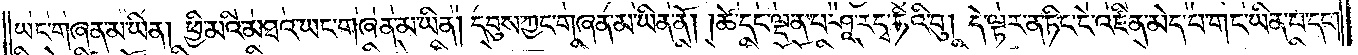ཡང་གཞན་མ་ཡིན། ཕྱི་མའི་མཐའ་ཡང་གཞན་མ་ཡིན། དབུས་ཀྱང་གཞན་མ་ཡིན་ནོ། །ཚེ་དང་ལྡན་པ་ཤཱ་རདྭ་ཏིའི་བུ། དེ་ལྟར་ན་ཏིང་ངེ་འཛིན་མེད་པ་གང་ཡིན་པ་དང༌།
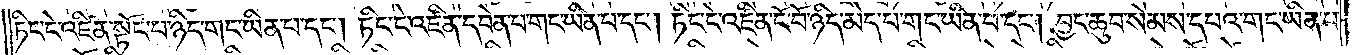ཏིང་ངེ་འཛིན་སྟོང་པ་ཉིད་གང་ཡིན་པ་དང༌། ཏིང་ངེ་འཛིན་དབེན་པ་གང་ཡིན་པ་དང༌། ཏིང་ངེ་འཛིན་ངོ་བོ་ཉིད་མེད་པ་གང་ཡིན་པ་དང༌། བྱང་ཆུབ་སེམས་དཔའ་གང་ཡིན་པ་
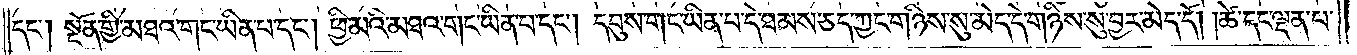དང༌། སྔོན་གྱི་མཐའ་གང་ཡིན་པ་དང༌། ཕྱི་མའི་མཐའ་གང་ཡིན་པ་དང༌། དབུས་གང་ཡིན་པ་དེ་ཐམས་ཅད་ཀྱང་གཉིས་སུ་མེད་དེ་གཉིས་སུ་བྱར་མེད་དོ། །ཚེ་དང་ལྡན་པ་
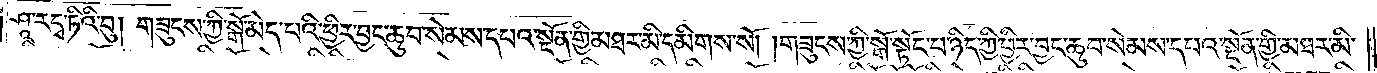ཤཱ་ར་དྭ་ཏིའི་བུ། གཟུངས་ཀྱི་སྒོ་མེད་པའི་ཕྱིར་བྱང་ཆུབ་སེམས་དཔའ་སྔོན་གྱི་མཐར་མི་དམིགས་སོ། །གཟུངས་ཀྱི་སྒོ་སྟོང་པ་ཉིད་ཀྱི་ཕྱིར་བྱང་ཆུབ་སེམས་དཔའ་སྔོན་གྱི་མཐར་མི་
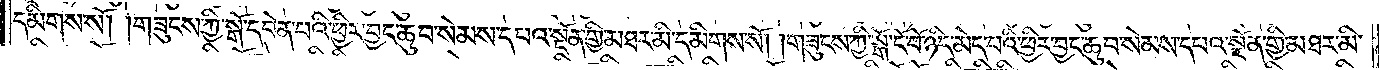དམིགས་སོ། །གཟུངས་ཀྱི་སྒོ་དབེན་པའི་ཕྱིར་བྱང་ཆུབ་སེམས་དཔའ་སྔོན་གྱི་མཐར་མི་དམིགས་སོ། །གཟུངས་ཀྱི་སྒོ་ངོ་བོ་ཉིད་མེད་པའི་ཕྱིར་བྱང་ཆུབ་སེམས་དཔའ་སྔོན་གྱི་མཐར་མི་
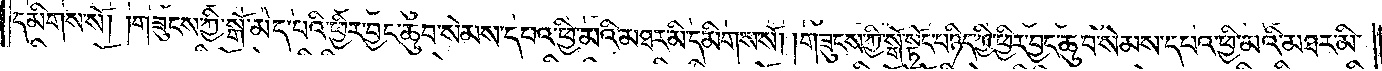དམིགས་སོ། །གཟུངས་ཀྱི་སྒོ་མེད་པའི་ཕྱིར་བྱང་ཆུབ་སེམས་དཔའ་ཕྱི་མའི་མཐར་མི་དམིགས་སོ། །གཟུངས་ཀྱི་སྒོ་སྟོང་པ་ཉིད་ཀྱི་ཕྱིར་བྱང་ཆུབ་སེམས་དཔའ་ཕྱི་མའི་མཐར་མི་
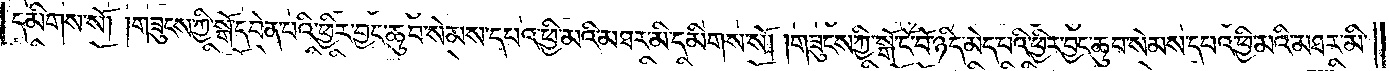དམིགས་སོ། །གཟུངས་ཀྱི་སྒོ་དབེན་པའི་ཕྱིར་བྱང་ཆུབ་སེམས་དཔའ་ཕྱི་མའི་མཐར་མི་དམིགས་སོ། །གཟུངས་ཀྱི་སྒོ་ངོ་བོ་ཉིད་མེད་པའི་ཕྱིར་བྱང་ཆུབ་སེམས་དཔའ་ཕྱི་མའི་མཐར་མི་
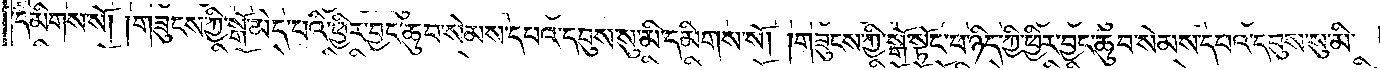དམིགས་སོ། །གཟུངས་ཀྱི་སྒོ་མེད་པའི་ཕྱིར་བྱང་ཆུབ་སེམས་དཔའ་དབུས་སུ་མི་དམིགས་སོ། །གཟུངས་ཀྱི་སྒོ་སྟོང་པ་ཉིད་ཀྱི་ཕྱིར་བྱང་ཆུབ་སེམས་དཔའ་དབུས་སུ་མི་
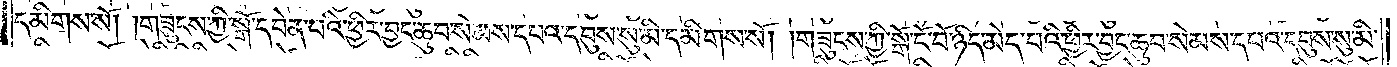དམིགས་སོ། །གཟུངས་ཀྱི་སྒོ་དབེན་པའི་ཕྱིར་བྱང་ཆུབ་སེམས་དཔའ་དབུས་སུ་མི་དམིགས་སོ། །གཟུངས་ཀྱི་སྒོ་ངོ་བོ་ཉིད་མེད་པའི་ཕྱིར་བྱང་ཆུབ་སེམས་དཔའ་དབུས་སུ་མི་
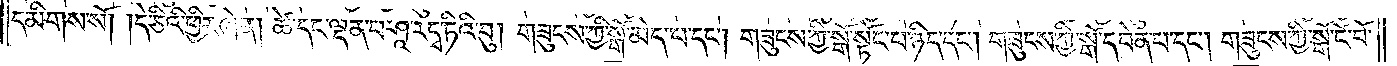དམིགས་སོ། །དེ་ཅིའི་ཕྱིར་ཞེ་ན། ཚེ་དང་ལྡན་པ་ཤཱ་རདྭ་ཏིའི་བུ། གཟུངས་ཀྱི་སྒོ་མེད་པ་དང༌། གཟུངས་ཀྱི་སྒོ་སྟོང་པ་ཉིད་དང༌། གཟུངས་ཀྱི་སྒོ་དབེན་པ་དང༌། གཟུངས་ཀྱི་སྒོ་ངོ་བོ་
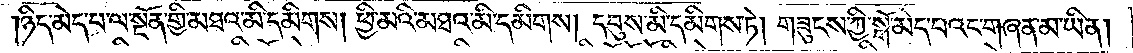ཉིད་མེད་པ་ལ་སྔོན་གྱི་མཐའ་མི་དམིགས། ཕྱི་མའི་མཐའ་མི་དམིགས། དབུས་མི་དམིགས་ཏེ། གཟུངས་ཀྱི་སྒོ་མེད་པའང་གཞན་མ་ཡིན།
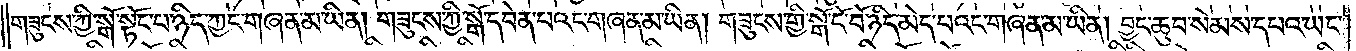གཟུངས་ཀྱི་སྒོ་སྟོང་པ་ཉིད་ཀྱང་གཞན་མ་ཡིན། གཟུངས་ཀྱི་སྒོ་དབེན་པའང་གཞན་མ་ཡིན། གཟུངས་ཀྱི་སྒོ་ངོ་བོ་ཉིད་མེད་པའང་གཞན་མ་ཡིན། བྱང་ཆུབ་སེམས་དཔའ་ཡང་
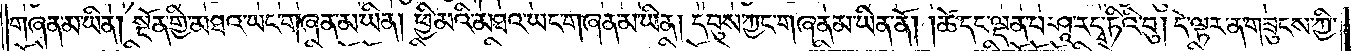གཞན་མ་ཡིན། སྔོན་གྱི་མཐའ་ཡང་གཞན་མ་ཡིན། ཕྱི་མའི་མཐའ་ཡང་གཞན་མ་ཡིན། དབུས་ཀྱང་གཞན་མ་ཡིན་ནོ། །ཚེ་དང་ལྡན་པ་ཤཱ་རདྭ་ཏིའི་བུ། དེ་ལྟར་ན་གཟུངས་ཀྱི་
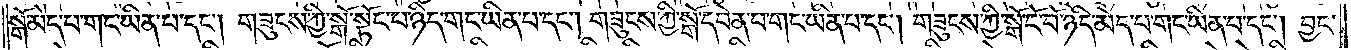སྒོ་མེད་པ་གང་ཡིན་པ་དང༌། གཟུངས་ཀྱི་སྒོ་སྟོང་པ་ཉིད་གང་ཡིན་པ་དང༌། གཟུངས་ཀྱི་སྒོ་དབེན་པ་གང་ཡིན་པ་དང༌། གཟུངས་ཀྱི་སྒོ་ངོ་བོ་ཉིད་མེད་པ་གང་ཡིན་པ་དང༌། བྱང་
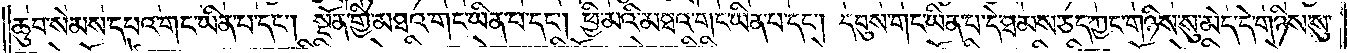ཆུབ་སེམས་དཔའ་གང་ཡིན་པ་དང༌། སྔོན་གྱི་མཐའ་གང་ཡིན་པ་དང༌། ཕྱི་མའི་མཐའ་གང་ཡིན་པ་དང༌། དབུས་གང་ཡིན་པ་དེ་ཐམས་ཅད་གང་གཉིས་སུ་མེད་དེ་གཉིས་སུ་
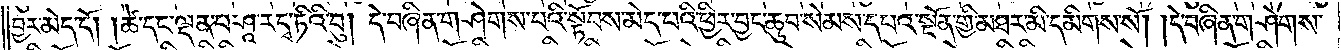བྱར་མེད་དོ། །ཚེ་དང་ལྡན་པ་ཤཱ་རདྭ་ཏིའི་བུ། དེ་བཞིན་གཤེགས་པའི་སྟོབས་མེད་པའི་ཕྱིར་བྱང་ཆུབ་སེམས་དཔའ་སྔོན་གྱི་མཐར་མི་དམིགས་སོ། །དེ་བཞིན་གཤེགས་
